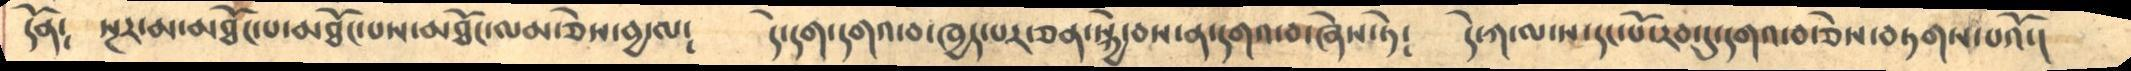དོན༴    སྔར་མ་མཐོང་པ་མཐོང་པས་མཐོང་ལམ་ཅེས་བྱ་ལ༴    དེ་དག་དགའ་བ་ཁྱད་པར་ཅན་སྐྱེ་བས་ན་དགའ་བ་ཞེས་ཏེ༴    དེ་ཀ་ལ་ས་དང་པོ་རབ་དུ་དགའ་བ་ཅེས་བཏགས་པའོ་།
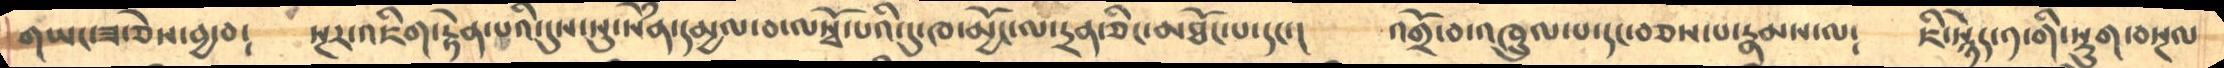གཡང་ཟ་ཅེས་བྱ་བ༴     སྔར་འཇིག་རྟེན་པའི་དུས་སུ་སེཾན་དམྱལ་བ་ལསྭོ་པའི་དུ་ཁ་མྱོང་ལ་དྲན་ཅིང་མཐོང་པ་དང་།     འགྲོ་བ་འཁྲུལ་པ་དང་བཅས་པ་རྣམས་ལ༴    ཇི་སྙེད་༡་གི་སྡུག་བསྔལ
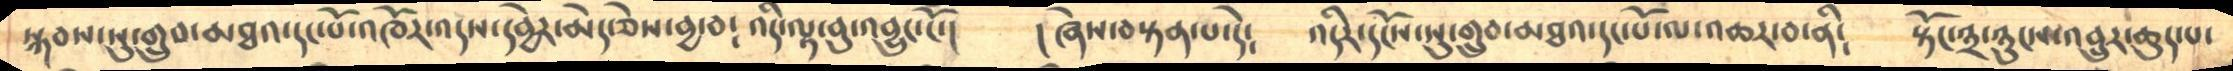སྐབས་སུ་གྲུབ་མཐའ་དང་པོ་འཁོར་འདས་དབྱེར་མེད་ཅེས་བྱ་བ༴  འདི་ལྟ་བུ་འབྱུང་ངོ་།     ། ཞེས་བསྟན་པ་དེ༴    འདིར་དངོས་སུ་གྲུབ་མཐའ་དང་པོ་ལ་འཆར་བ་ནི༴    སྟོང་༣་ཉུངས་འབྲུར་ཆུད་པ་
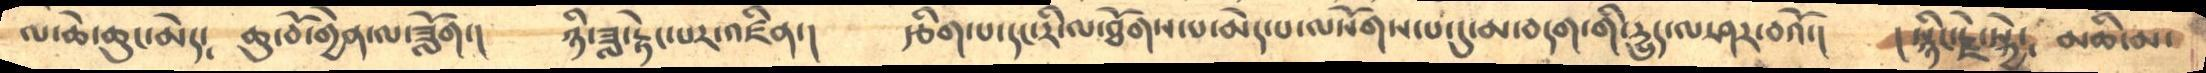ལ་ཆེ་ཆུང་མེད༴     ཆུ་བོ་གྱེན་ལ་ཟློག་།   ཉི་ཟླ་རྟེང་པར་འཛིན་།    རྩིག་པ་དང་རི་ལ་ཐོགས་པ་མེད་པ་ལསོགས་པ་དུ་མ་དབག་གི་དྱུད་ལ་ཤར་བའོ་།    །སྙིང་རྗེ་སྐྱེ་  མཆི་མ་
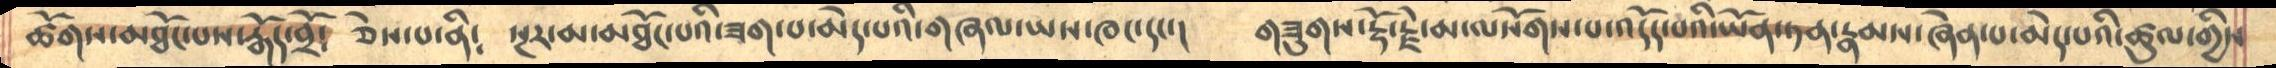ཚོགས་མཐོང་པས་རྒོད་བྲོ༴  ཅེས་པ་ནི༴   སྔར་མ་མཐོང་པའི་ཟག་པ་མེད་པའི་གཞལ་ཡས་ཁང་དང་།    གཟུགས་རྡོ་རྗེ་མ་ལསོགས་པ་འདོད་པའི་ཡོན་ཏན་རྣམས་ཞེན་པ་མེད་པའི་ཚུལ་གྱིས
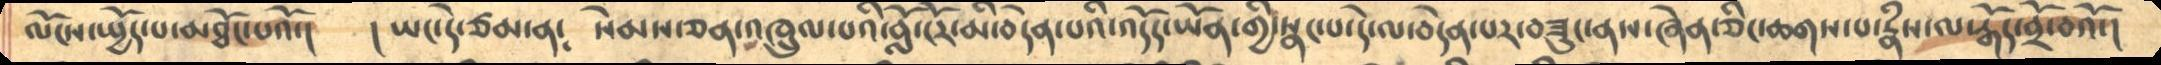ལོངས་སྤྱོད་པ་མཐོང་པའོ་།     ། ཡང་དེ་ཙམ་ན༴   སེམས་ཅན་འཁྲུལ་པའི་བློ་ངོར་མི་བདེན་པའི་འདོད་ཡོན་གྱི་སྣང་པ་དེ་ལ་བདེན་པར་བཟུང་ནས་ཞེན་ཅིང་ཆགས་པ་རྣཾས་ལ་རྒོད་བྲོ་བའོ་།
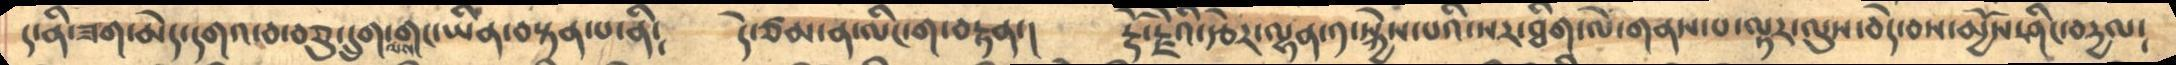ད་ནི་ཟག་མེད་དགའ་བ་བཅུ་དྲུག་ལས་གང་ཡིན་བསྟན་པ་ནི༴     དེ་ཙམ་ན་ལིང་ག་བསྟན་།   རྡོ་རྗེའི་རྩེར་ལྷག་༡་སྐྱེས་པའི་སར་ཐིག་ལེ་གནས་པ་ལྟར་ལུས་བདེ་བས་མྱོས་ཤིང་བདྱལ༴
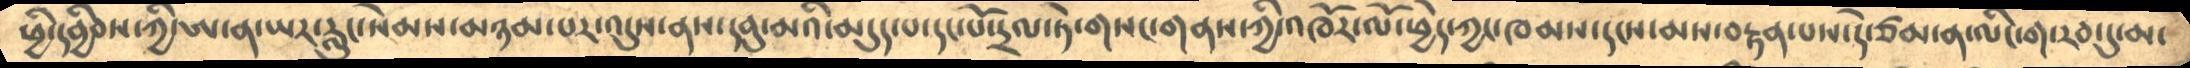ཕྱི་དབྱིབས་ཀྱི་ཨ་ན་ཡར་རླུང་སེམས་མཉམ་པར་འདུས་ནས་དབུ་མའི་མདུད་པ་དང་པོ་དྲལ་ཏེ་གསང་གནས་ཀྱི་འཁོར་ལོ་ཕྱེད་ཀྱང་ཁམས་དངས་མས་བསྟན་པས་དེ་ཙམ་ན་ལིང་ག་རབ་དུ་མ་
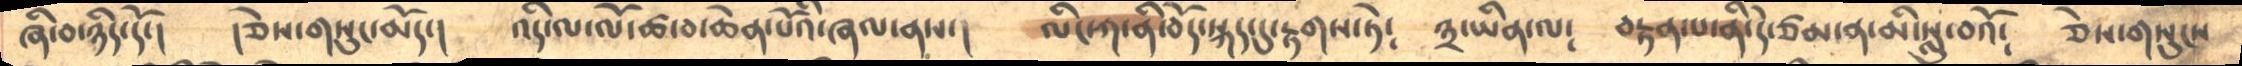ཞི་བ་ཉིད་དོ་།      །ཅེས་གསུང་མོད་།   འདི་ལ་ལོ་ཚ་བ་ཆེན་པོའི་ཞལ་ནས་།    ལིང་ཀ་ནི་བོད་སྐད་དུ་རྟགས་ཏེ༴    ༣་ཡིན་ལ༴   བརྟན་པ་ནི་དེ་ཙམ་ན་མི་སླུ་བའོ༴   ཅེས་གསུངས
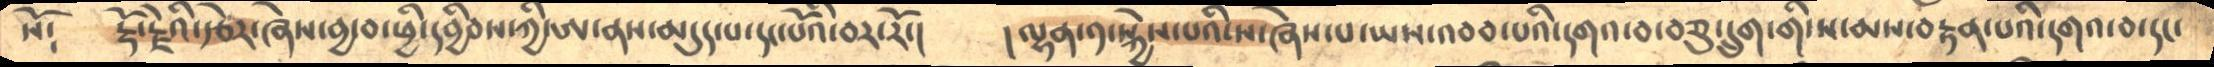སོ༴     རྡོ་རྗེའི་རྩེར་ཞེས་བྱ་བ་ཕྱི་དབྱིབས་ཀྱི་ཨ་ནས་མདུད་པ་དང་པོའི་བར་རོ་།    །ལྷན་༡་སྐྱེས་པའི་ས་ཞེས་པ་ཡས་འབབ་པའི་དགའ་བ་བཅུ་དྲུག་གི་ས་མས་བརྟན་པའི་དགའ་བ་དང་
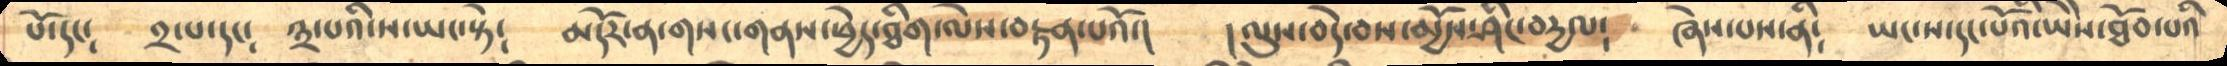པོ་དང༴  ༢་པ་དང༴   ༣་པའི་ས་ཡང་སྟེ༴   མདོར་ན་གསང་གནས་ཕྱེད་ཐིག་ལེས་བརྟན་པའོ་།   །ལུས་བདེ་བས་མྱོས་ཤིང་བདྱལ༴   ཞེས་པས་ནི༴   ཡང་ས་དང་པོའི་ཡཻས་ཐོབ་པའི
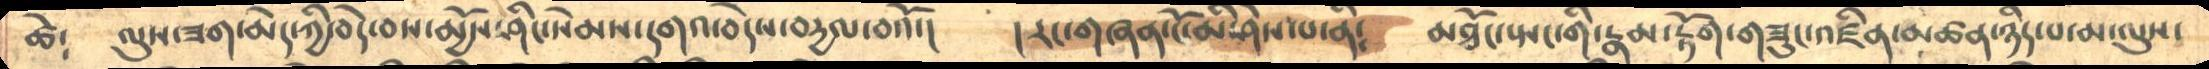ཚེ༴    ལུས་ཟག་མེད་ཀྱི་བདེ་བས་མྱོས་ཤིང་སེམས་དགའ་བདེས་བདྱལ་བའོ་།    ། རང་གཞན་ངོ་མི་ཤེས་པ་ནི༴   མཐོང་སྤང་གི་རྣམ་རྟོག་གཟུང་འཛིན་མཚན་ཉིད་པ་མ་ལུས་
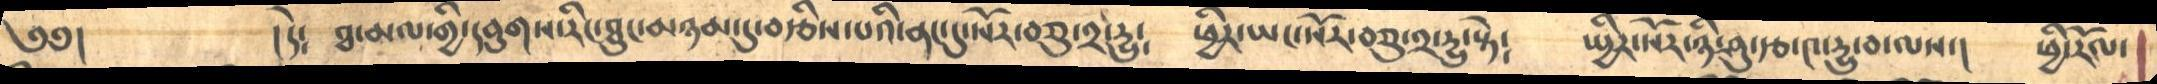༄༅།         །དེ༴    ཐ་མལ་གྱི་དབུགས་རིང་ཐུང་མཉམ་དུ་བརྩིས་པའི་ནང་དུ་སོར་བཅུ་༢་དྱུ༴   ཕྱིར་ཡང་སོར་བཅུ་༢་དྱུ་སྟེ༴    སྤྱིར་སོར་ཉི་ཤུ་རྩ་༤་དྱུ་བ་ལས་།    ཕྱི་རོལ་
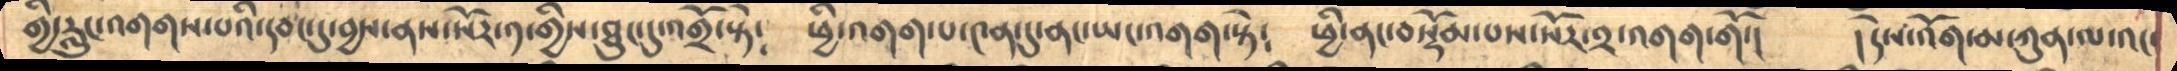གྱི་རླུང་འགགས་པའི་དབང་དུ་བྱས་ནས་སོར་༡་གྱིས་ཐུང་དུ་འགྲོ་སྟེ༴    ཕྱི་འགག་པ་༤ན་དུ་ནང་ཡང་འགག་སྟེ༴    ཕྱི་ནང་བསྡོམ་པས་སོར་༢་འགག་གོ་།    །དེས་འོག་མ་ཀུན་ལ་འང་
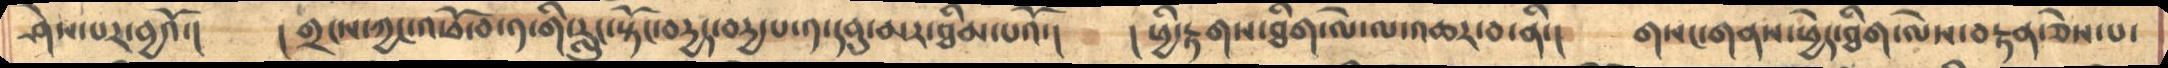ཤེས་པར་བྱའོ་།    ། གྲངས་ཀྱང་འཕོ་བ་༡་གི་རླུང་སྟོང་བདྱད་བདྱ་པ་༡་དབུ་མར་ཐིམ་པའོ་།    ། ཕྱི་རྟགས་ཐིག་ལེ་ལ་འཆར་བ་ནི་།    གསང་གནས་ཕྱེད་ཐིག་ལེས་བརྟན་ཅེས་པ་
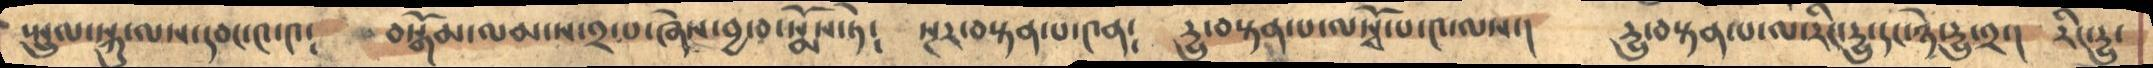སྤྲུལ་སྐུ་ལས་དབང་༤་༤༴    བསྒོམ་ལམ་ས་༢་པ་ཞེས་བྱ་བ་སྨོས་ཏེ༴   སྔར་བསྟན་པ་༤ན༴   དྱུ་བསྟན་པ་ལསྭོ་པ་༤་ལས་།   དྱུ་བསྟན་པ་ལ་རིང་དྱུ་དང་ཉེ་དྱུ་༢་།   རིང་དྱུ་
